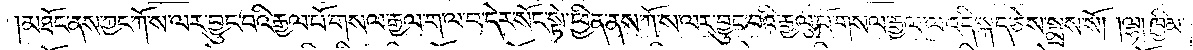མཐོང་ནས་ཀྱང་ཀོ་ས་ལར་བྱུང་བའི་རྒྱལ་པོ་གསལ་རྒྱལ་ག་ལ་བ་དེར་སོང་སྟེ་ཕྱིན་ནས་ཀོ་ས་ལར་བྱུང་བའི་རྒྱལ་པོ་གསལ་རྒྱལ་ལ་འདི་སྐད་ཅེས་སྨྲས་སོ། །ལྷ། ཁྱིམ་
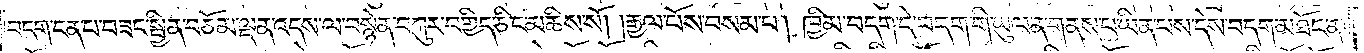བདག་ངན་པ་བཟང་སྦྱིན་བཅོམ་ལྡན་འདས་ལ་བསྙེན་བཀུར་བགྱིད་ཅིང་མཆིས་སོ། །རྒྱལ་པོས་བསམ་པ། ཁྱིམ་བདག་དེ་བདག་གི་ཡུལ་ན་གནས་པ་ཡིན་པས་དེས་བདག་མཐོང་ན།
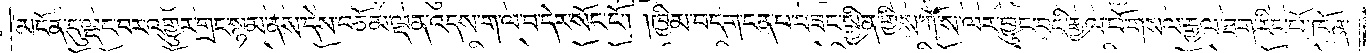མངོན་དུ་ལྡང་བར་འགྱུར་གྲང་སྙམ་ནས་དེས་བཅོམ་ལྡན་འདས་ག་ལ་བ་དེར་སོང་ངོ༌། །ཁྱིམ་བདག་ངན་པ་བཟང་སྦྱིན་གྱིས་ཀོ་ས་ལར་བྱུང་བའི་རྒྱལ་པོ་གསལ་རྒྱལ་ཐག་རིང་པོ་ཁོ་ན་
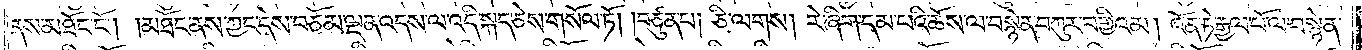ནས་མཐོང་ངོ༌། །མཐོང་ནས་ཀྱང་དེས་བཅོམ་ལྡན་འདས་ལ་འདི་སྐད་ཅེས་གསོལ་ཏོ། །བཙུན་པ། ཅི་ལགས། རེ་ཞིག་དམ་པའི་ཆོས་ལ་བསྙེན་བཀུར་བགྱིའམ། འོན་ཏེ་རྒྱལ་པོ་ལ་བསྙེན་
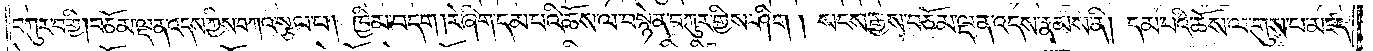བཀུར་བགྱི། བཅོམ་ལྡན་འདས་ཀྱིས་བཀའ་སྩལ་པ། ཁྱིམ་བདག །རེ་ཞིག་དམ་པའི་ཆོས་ལ་བསྙེན་བཀུར་གྱིས་ཤིག། སངས་རྒྱས་བཅོམ་ལྡན་འདས་རྣམས་ནི། དམ་པའི་ཆོས་ལ་གུས་པ་མཛད་
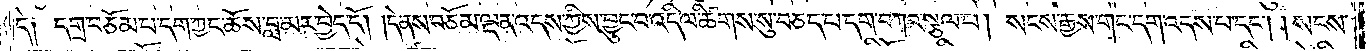དེ༑ དགྲ་བཅོམ་པ་དག་ཀྱང་ཆོས་བླ་མར་བྱེད་དོ། །དེ་ནས་བཅོམ་ལྡན་འདས་ཀྱིས་བྱུང་བ་འདི་ལ་ཚིགས་སུ་བཅད་པ་དག་བཀའ་སྩལ་པ། སངས་རྒྱས་གང་དག་འདས་པ་དང༌། །སངས་
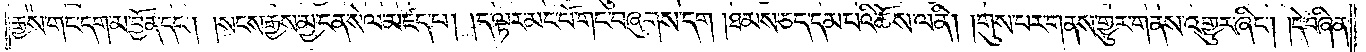རྒྱས་གང་དག་མ་བྱོན་དང༌། །སངས་རྒྱས་མྱ་ངན་སེལ་མཛད་པ། །ད་ལྟར་མང་པོ་གང་བཞུགས་དག །ཐམས་ཅད་དམ་པའི་ཆོས་ལ་ནི། །གུས་པར་གནས་གྱུར་ནས་འགྱུར་ཞིང༌། །དེ་བཞིན་
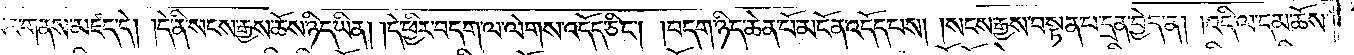གུས་པར་གནས་མཛད་དེ། །དེ་ནི་སངས་རྒྱས་ཆོས་ཉིད་ཡིན། །དེ་ཕྱིར་བདག་ལ་ལེགས་འདོད་ཅིང༌། །བདག་ཉིད་ཆེན་པོ་མངོན་འདོད་པས། །སངས་རྒྱས་བསྟན་པ་དྲན་བྱེད་ན། །འདི་ལ་དམ་ཆོས་
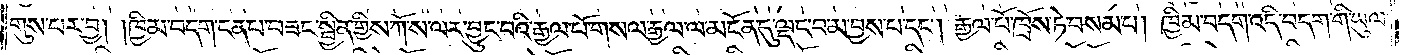གུས་པར་བྱ། །ཁྱིམ་བདག་ངན་པ་བཟང་སྦྱིན་གྱིས་ཀོ་ས་ལར་བྱུང་བའི་རྒྱལ་པོ་གསལ་རྒྱལ་ལ་མངོན་དུ་ལྡང་བ་མ་བྱས་པ་དང༌། རྒྱལ་པོ་ཁྲོས་ཏེ་བསམ་པ། ཁྱིམ་བདག་འདི་བདག་གི་ཡུལ་
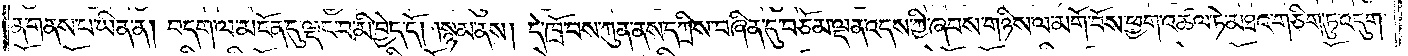ན་གནས་པ་ཡིན་ན། བདག་ལ་མངོན་དུ་ལྡང་བ་མི་བྱེད་དོ། །སྙམ་ནས། དེ་ཁྲོ་བས་ཀུན་ནས་དཀྲིས་བཞིན་དུ་བཅོམ་ལྡན་འདས་ཀྱི་ཞབས་གཉིས་ལ་མགོ་བོས་ཕྱག་འཚལ་ཏེ་མཐའ་གཅིག་ཏུ་འདུག་
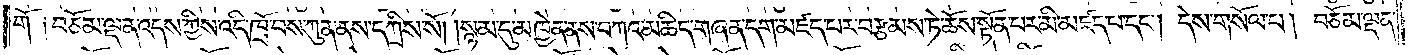གོ ༑བཅོམ་ལྡན་འདས་ཀྱིས་འདི་ཁྲོ་བས་ཀུན་ནས་དཀྲིས་སོ། །སྙམ་དུ་མཁྱེན་ནས་བཀའ་མཆིད་གཞན་དག་མཛད་པར་བརྩམས་ཏེ་ཆོས་སྟོན་པར་མི་མཛད་པ་དང༌། དེས་གསོལ་པ། བཅོམ་ལྡན་
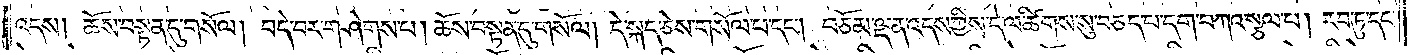འདས། ཆོས་བསྟན་དུ་གསོལ། བདེ་བར་གཤེགས་པ། ཆོས་བསྟན་དུ་གསོལ། དེ་སྐད་ཅས་གསོལ་པ་དང༌། བཅོམ་ལྡན་འདས་ཀྱིས་དེ་ལ་ཚིགས་སུ་བཅད་པ་དག་བཀའ་སྩལ་པ། རབ་ཏུ་དང་
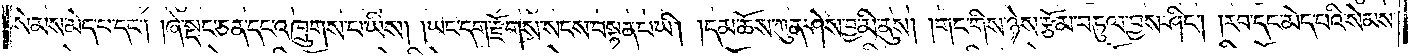སེམས་མེད་པ་དང༌། །ཞེ་སྡང་ཅན་དང་འཁྲུགས་པ་ཡིས། །ཡང་དག་རྫོགས་སངས་བསྟན་པ་ཡི། །དམ་ཆོས་ཀུན་ཤེས་བྱ་མི་ནུས། །གང་གིས་ཉེས་རྩོམ་བཏུལ་བྱས་ཤིང༌། །རབ་དང་མེད་པའི་སེམས་
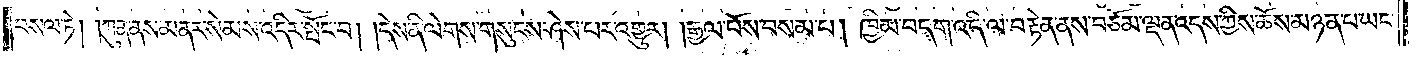བསལ་ཏེ། །ཀུན་ནས་མནར་སེམས་འདིར་སྤོང་བ། །དེས་ནི་ལེགས་གསུངས་ཤེས་པར་འགྱུར། །རྒྱལ་པོས་བསམ་པ། ཁྱིམ་བདག་འདི་ལ་བརྟེན་ནས་བཅོམ་ལྡན་འདས་ཀྱིས་ཆོས་མཉན་པ་ཡང་
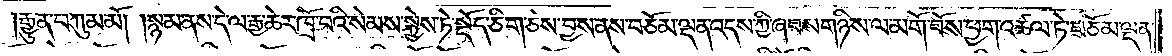རྒྱུན་བཀུམ་མོ། །སྙམ་ནས་དེ་ལ་རྒྱ་ཆེར་ཁྲོ་བའི་སེམས་སྐྱེས་ཏེ་སྡོད་ཅིག་ཅེས་བྱས་ནས་བཅོམ་ལྡན་འདས་ཀྱི་ཞབས་གཉིས་ལ་མགོ་བོས་ཕྱག་འཚལ་ཏེ་བཅོམ་ལྡན་
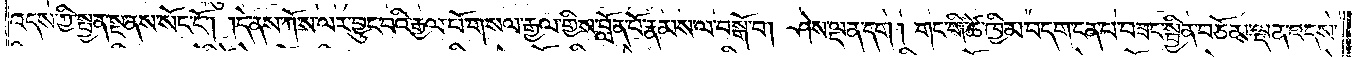འདས་ཀྱི་སྤྱན་སྔ་ནས་སོང་ངོ༌། །ད་ནས་ཀོ་ས་ལར་བྱུང་བའི་རྒྱལ་པོ་གསལ་རྒྱལ་གྱིས་བློན་པོ་རྣམས་ལ་བསྒོ་བ། ཤེས་ལྡན་དག། གང་གི་ཚེ་ཁྱིམ་བདག་ངན་པ་བཟང་སྦྱིན་བཅོམ་ལྡན་འདས་
